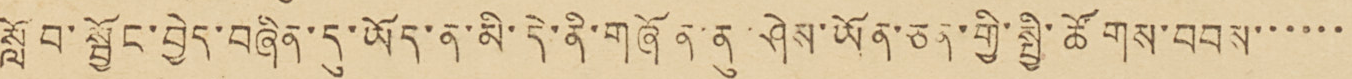སློབ་སྦྱོང་བྱེད་བཞིན་དུ་ཡོད་ན་མི་དེ་ནི་གཞོན་ནུ་ཤེས་ཡོན་ཅན་གྱི་སྤྱི་ཚོགས་བབས་་་་་་
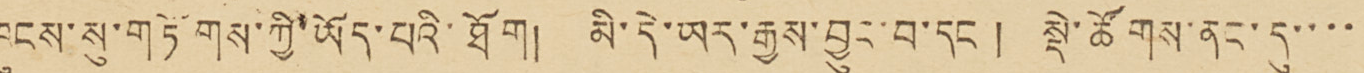ཁུངས་སུ་གཏོགས་ཀྱི་ཡོད་པའི་ཐོག། མི་དེ་ཡར་རྒྱས་བྱུང་བ་དང་། སྡེ་ཚོགས་ནང་དུ་་་་
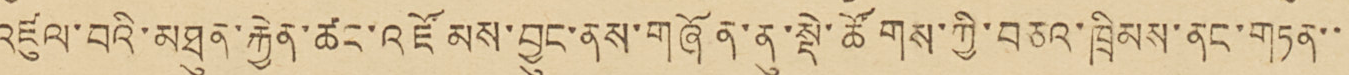འཛུལ་བའི་མཐུན་རྐྱེན་ཚང་འཛོམས་བྱུང་ནས་གཞོན་ནུ་སྡེ་ཚོགས་ཀྱི་བཅའ་ཁྲིམས་ནང་གཏན་་་
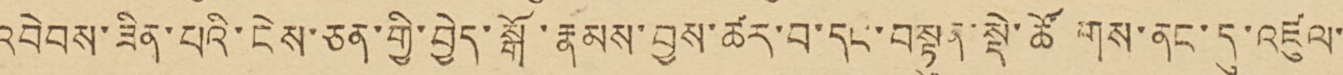འབེབས་ཟིན་པའི་ངེས་ཅན་གྱི་བྱེད་སྒོ་རྣམས་བྱས་ཚར་བ་དང་བསྟུན་སྡེ་ཚོགས་ནང་དུ་འཛུལ་་
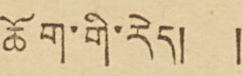ཆོག་གི་རེད། །
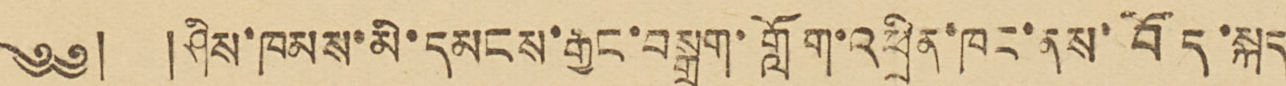༄༅། །ཤིས་ཁམས་མི་དམངས་རྒྱང་བསྒྲག་གློག་འཕྲིན་ཁང་ནས་བོད་སྐད་
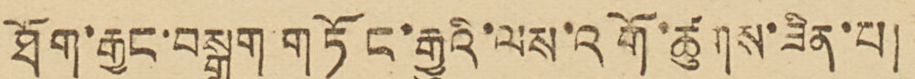ཐོག་རྒྱང་བསྒྲག་གཏོང་རྒྱུའི་ལས་འགོ་ཚུགས་ཟིན་པ།
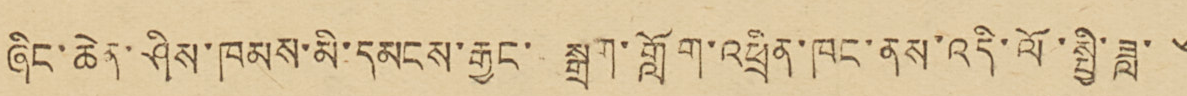ཞིང་ཆེན་ཤིས་ཁམས་མི་དམངས་རྒྱང་སྒྲག་གློག་འཕྲིན་ཁང་ནས་འདི་ལོ་སྤྱི་ཟླ་ ༦
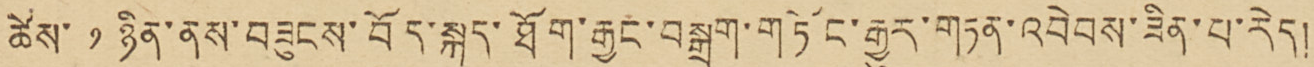ཚེས་ ༡ ཉིན་ནས་བཟུངས་བོད་སྐད་ཐོག་རྒྱང་བསྒྲག་གཏོང་རྒྱུར་གཏན་འབེབས་ཟིན་པ་རེད།
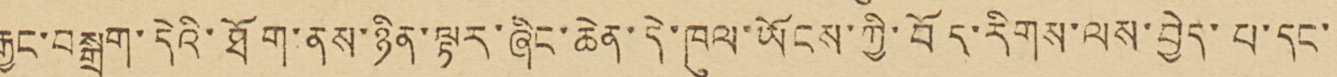རྒྱང་བསྒྲག་དེའི་ཐོག་ནས་ཉིན་ལྟར་ཞིང་ཆེན་དེ་ཁུལ་ཡོངས་ཀྱི་བོད་རིགས་ལས་བྱེད་པ་དང་།
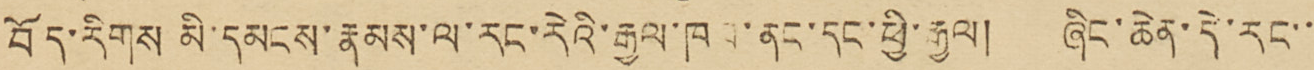བོད་རིགས་མི་དམངས་རྣམས་ལ་རང་རེའི་རྒྱལ་ཁབ་ནང་དང་ཕྱི་རྒྱལ། ཞིང་ཆེན་དེ་རང་་་
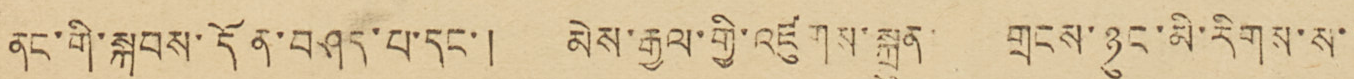ནང་གི་སྐབས་དོན་བཤད་པ་དང་། མེས་རྒྱལ་གྱི་འཛུགས་སྐྲུན་ གྲངས་ཉུང་མི་རིགས་ས་་
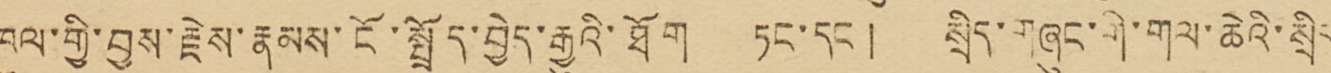ཁུལ་གྱི་བྱས་རྗེས་རྣམས་ངོ་སྤྲོད་བྱེད་རྒྱུའི་ཐོག ཏང་དང་། སྲིད་གཞུང་གི་གལ་ཆེའི་སྲིད་
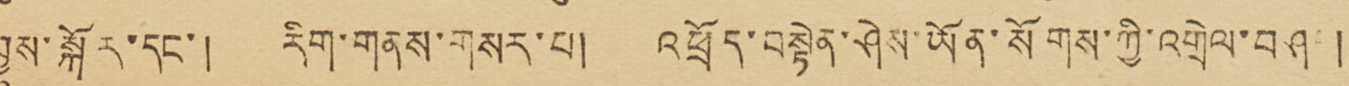བྱུས་སྐོར་དང་། རིག་གནས་གསར་པ། འཕྲོད་བསྟེན་ཤེས་ཡོན་སོགས་ཀྱི་འགྲེལ་བཤད །
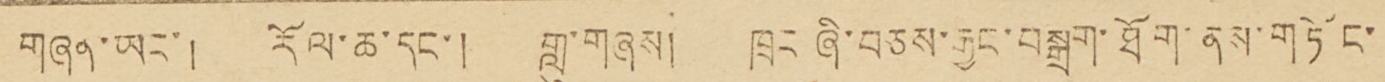གཞན་ཡང་། རོལ་ཆ་དང་། གླུ་གཞས། ཁྲང་ཞི་བཅས་རྒྱང་བསྒྲག་ཐོག་ནས་གཏོང་
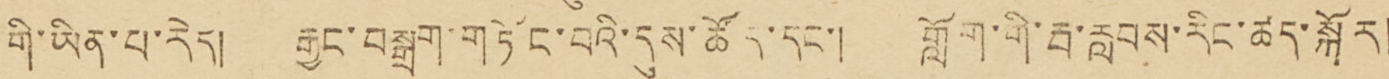གི་ཡིན་པ་རེད། རྒྱང་བསྒྲག་གཏོང་བའི་དུས་ཚོད་དང་། གློག་གི་རྦ་རླབས་རིང་ཚད་སྐོར།
